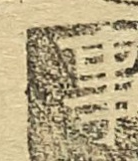事
